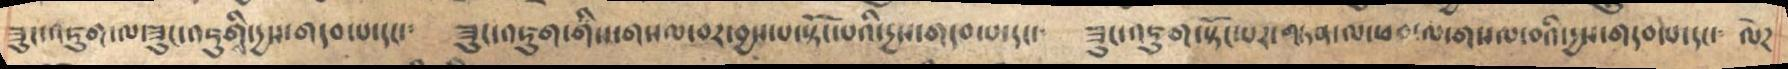ཟུང་འཇུག་ལ་ཟུང་འཇུགི་དྱས་གདབ་པ་དང༴ ཟུང་འཇུག་གིས་གསལ་བར་བྱས་པ་སྟོང་པའི་དྱས་གདབ་པ་དང་  ཟུང་འཇུག་སྟོང་པར་གཏན་ལ་ཕབ་ལ་གསལ་བའི་དྱས་གདབ་པ་དང་  ལེཌ
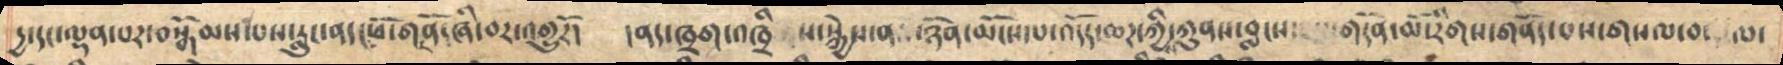དྱ་དང་ལྡན་པར་བསྒོམས་པས་རླུང་ནད་ཕོ་གནོད་ཞི་བར་འགྱུརོ།    །ནད་ཁྲག་འཁྲིས་སྐྱེས་ན ་ཉོན་མོངས་པ་འདོད་ཆཌ་ཀྱི་ཀུནས་བླངས་   གདོན་མོ་རིགས་གནོད་པས་གསལ་བ་  ལ་
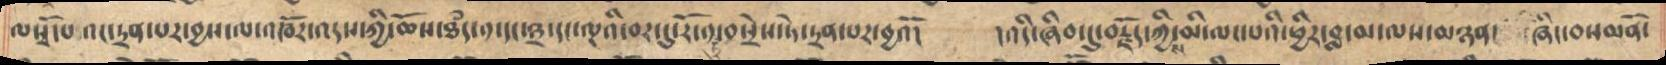ལསྭ་ོཔའང་རྲན་པར་བྱས་ལ་འཁོར་འདས་ཀྱི་ཆོས་ཐཾད་༡་དང་༣་དང་ལྔའི་བར་དུ་རོ་༡་བསྲེས་ཏེ་ཏྲན་པར་བྱའོ།     །འདི་ཞིབ་དུ་བརྗོད་ཀྱིས་མི་ལང་པའི་ཕྱིར་བླ་མ་ལས་མཉན་  ཞིང་བསམནོ་
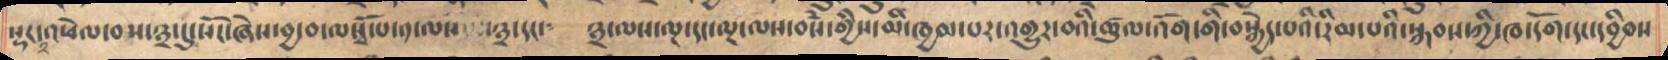སྡང་འཕེལ་བས་༣་དུ་སོང་ཞེས་བྱ་བ་ལསྭོ་པ་༡་ལས  ་༣་དང༴  ༣་ལས་ལྔ་དང་ལྔ་ལས་བསཾ་གྱིས་མི་ཁྱབ་པར་འགྱུར་བའི་ཚུལ་འོག་གི་བསྐྱེད་པའི་རིམ་པའི་སྐབས་ཀྱི་ཁ་དོག་དང་དབྱིབས་
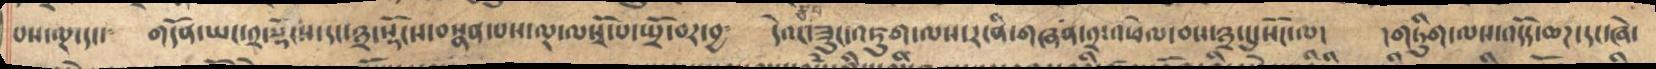བད་ལྔ་དང།   གདོན་ཡང་༢་སྟོངས་དང་༣་སྟོངས་བསྣན་པས་ལྔ་ལསྭོ་ཡྲོ་བར་བྱ༴     དེའང་ཟུང་འཇུག་ལས་རངིན་གཞན་༢་འཕེལ་བས་༣་སུ་སོང་ལ།   །གཏིུག་ལས་འདོད་ཆཌ་དང་ཞེ་
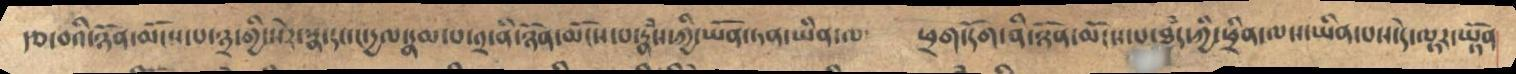རྩ་བའི་ཉོན་མོངས་པ་༣་གྱི་སེར་སྣ་དང་ང་དྱལ་རྣམ་པ་༢་ནི་ཉོན་མོངས་པ་རྣྃས་ཀྱི་ཡོན་ཏན་ཡིན་ལ༴   ཕྲག་དོག་ནི་ཉོན་མོངས་པ་ཐཾད་ཀྱི་འཕྲིན་ལས་ཡིན་པས་ཏེ་ལྟར་ཡྟོན
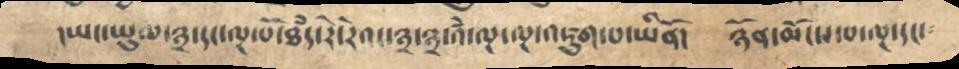།ཡང་ཡུལ་༣་དང་ལྔ་པོ་ཐཾད་རེ་ེརའང་༣་༣་འཾ་ལྔ་ལྔ་འཇུག་པ་ཡིནོ། ཉོན་མོངས་པ་ལྔ་དང་
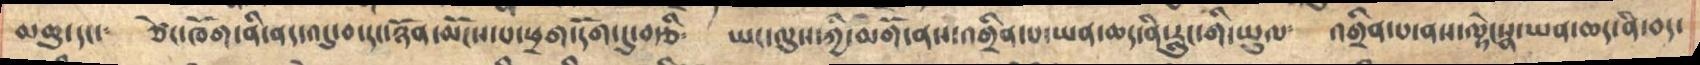མཆུ་དང་ ཙེང་ཁོག་ནི་ནད་འདུ་བ་དང་ཉོན་མོངས་པ་ཕྲག་དོག་དུ་བརྩི༴ ཡང་ལུས་ཀྱི་མགོ་ནས་འགྲིན་པ་ཡན་ཆད་ནི་རླུང་གི་ཡུལ༴ འགྲིན་པ་ནས་ལྟེ་སྣ་ཡན་ཆད་ནི་བད་
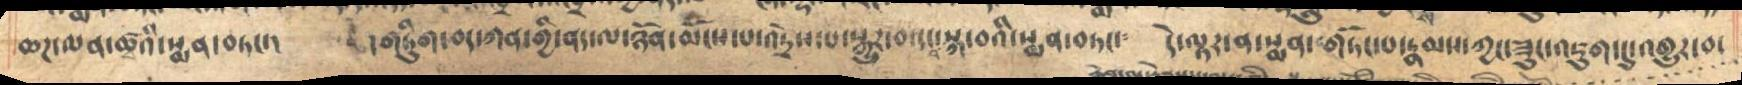ཆཌ་ལན་ཚའི་སྨན་བཏང་།       །གཏིུག་བད་ཀན་གི་ནད་ལ་ཉོན་མོངས་པ་འདྲེས་པ་སྒྱུར་བ་དང་བསྐ་བའི་སྨན་བཏང་    དེ་ལྟར་ན་སྨན་གཏོང་པ་རྣམས་ཀྱང་ཟུང་འཇུག་དུ་འགྱུར་བ་
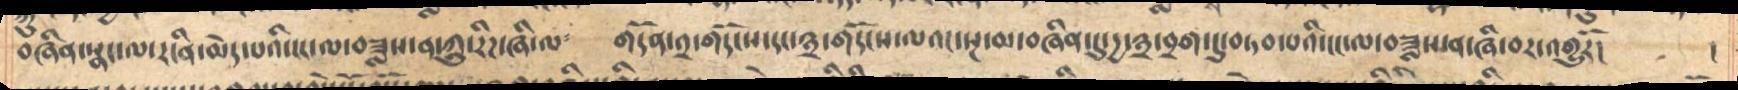བཞིན་སྣང་ལ་རངིན་མེད་པའི་ངང་ལ་བཟླས་ན་ཀླུ་རིཌ་ཞི་ལ    གདོན་༢་གདོངས་དང་༣་གདོངས་ལའང་སྔ་མ་བཞིན་དུ་དྱ་༣་བྲག་དུ་བཏབ་པའི་ངང་ལ་བཟླས་ན་ཞི་བར་འགྱུརོ།      །
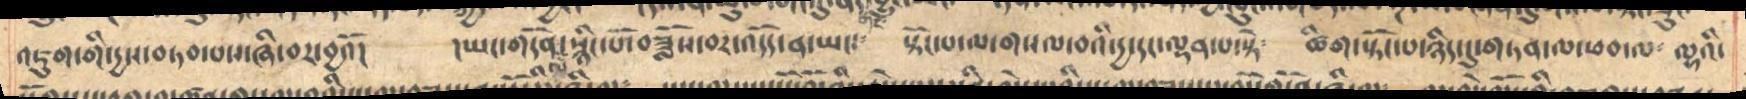འཇུག་གི་དྱས་བཏབ་པས་ཞི་བར་བྱའོ།   །ཡང་གདོན་ལ་སྙིང་པོ་བཟློས་བར་འདོད་ན་ཡང༴   སྟོང་པ་ལ་གསལ་བའི་དྱ་དང་ལྡན་པ་སྟེ༴   ཚིག་སྟོང་པ་ཉིད་དུ་གཏན་ལ་ཕབ་ལ  ལྷའི་
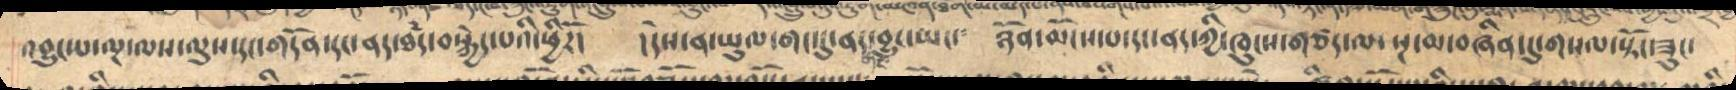འབྱུང་པ་ལྔ་ལས་ལུས་དང་གདོན་དང་ནད་ཐཾད་བསྐྱེད་པའི་ཕྱིརོ།  །དེས་ན་ཡུལ་གང་དུ་ནད་གང་བྱུང་ཡང་   ཉོན་མོངས་པ་དང་ནད་ཀྱི་ཁུངས་གཙད་ལ་སྔ་མ་བཞིན་དུ་གསལ་སྟོང་ཟུང་
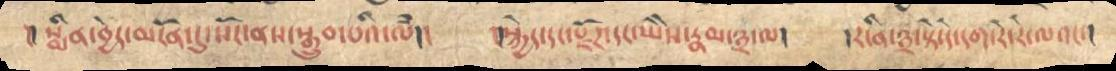།།སྨིན་བྱེད་མངོན་དུ་སོང་ནས་སྒྲུབ་པའི་ལཾ།། །།སྐྱེད་དང་སྫོཌ་དང་ཡཻས་རྣམ་༣་ལ། །ར་ནི་༣་སྟེ་དེ་དག་རེ་ེརེ་ལའང་།
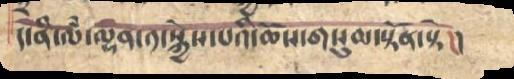ད་ནི་ལཾ་ལྷན་༡་སྐྱེས་པའི་ཆོས་གསུམ་སྟོན་སྟེ།།
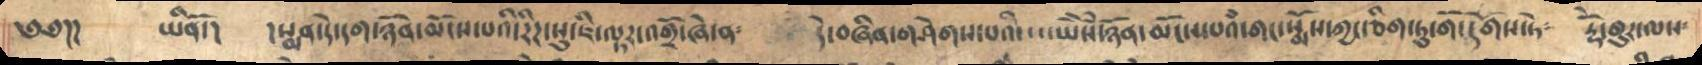༄༅།། ཡིནོ། །སྨན་དེ་དག་ཉོན་མོངས་པའི་རིཌ་སུ་ཇི་ལྟར་འགྲོ་ཞེ་ན༴ དེ་བཞིན་གཤེགས་པའི་་་་ཡཻས་ཉོན་མོངས་པའི་གང་སྨོས་ཀྱང་ཅིག་ཏུ་གོ་དགོས་ཏེ༴ རྡོེ་གུར་ལས༴
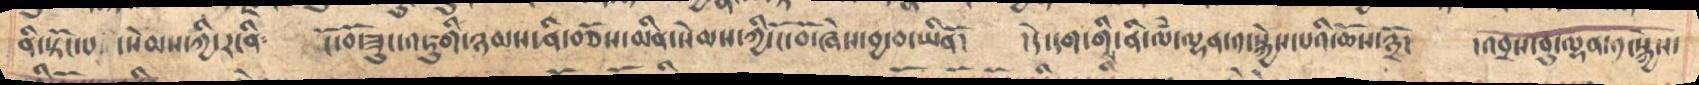ནི་སྟོང་པ ་སེམས་ཀྱི་ར་ནི༴ ངོ་བོ་ཟུང་འཇུགི་ཉམས་ནི་བཅོས་མིན་སེམས་ཀྱི་ངོ་བོ་ཞེས་བྱ་བ་ཡིནོ། །དེ་དག་གི་ནི་ལཾ་ལྷན་༡་སྐྱེས་པའི་ཆོས་༣ོ། །འབྲས་བུ་ལྷན་༡་སྐྱེས་
